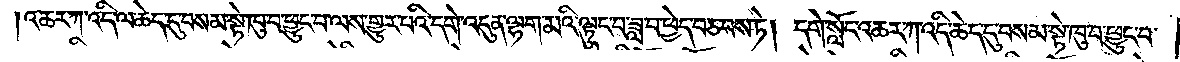འཆར་ཀ་འདི་ལ་ཆེད་དུ་བསམ་སྟེ་ཁུ་བ་ཕྱུང་བ་ལས་གྱུར་བའི་དགེ་འདུན་ལྷག་མའི་ལྟུང་བ་ཟླ་བ་ཕྱེད་བཅབས་ཏེ། དགེ་སློང་འཆར་ཀ་འདི་ཆེད་དུ་བསམ་སྟེ་ཁུ་བ་ཕྱུང་བ་
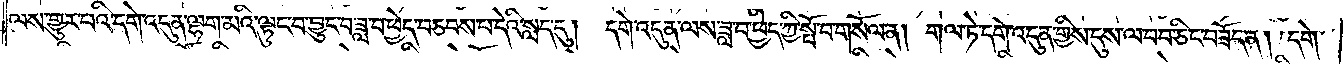ལས་གྱུར་པའི་དགེ་འདུན་ལྷག་མའི་ལྟུང་བ་བྱུང་བ་ཟླ་བ་ཕྱེད་བཅབས་པ་དེའི་སླད་དུ། དགེ་འདུན་ལས་ཟླ་བ་ཕྱེད་ཀྱི་སྤོ་བ་གསོལ་ན། གལ་ཏེ་དགེ་འདུན་གྱིས་དུས་ལ་བབ་ཅིང་བཟོད་ན། དགེ་
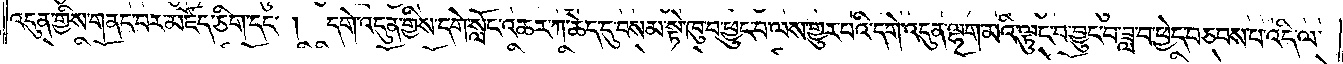འདུན་གྱིས་གནང་བར་མཛོད་ཅིག་དང༌། དགེ་འདུན་གྱིས་དགེ་སློང་འཆར་ཀ་ཆེད་དུ་བསམ་སྟེ་ཁུ་བ་ཕྱུང་བ་ལས་གྱུར་པའི་དགེ་འདུན་ལྷག་མའི་ལྟུང་བ་བྱུང་བ་ཟླ་བ་ཕྱེད་བཅབས་པ་འདི་ལ་
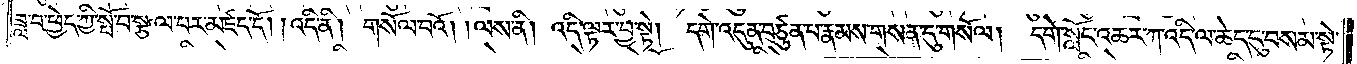ཟླ་བ་ཕྱེད་ཀྱི་སྤོ་བ་སྩལ་པར་མཛད་དོ། །འདི་ནི། གསོལ་བའོ། །ལས་ནི། འདི་ལྟར་བྱ་སྟེ། དགེ་འདུན་བཙུན་པ་རྣམས་གསན་དུ་གསོལ། དགེ་སློང་འཆར་ཀ་འདི་ལ་ཆེད་དུ་བསམ་སྟེ་
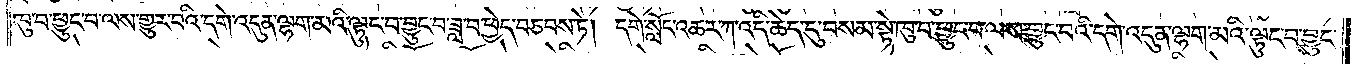ཁུ་བ་ཕྱུང་བ་ལས་གྱུར་བའི་དགེ་འདུན་ལྷག་མའི་ལྟུང་བ་བྱུང་བ་ཟླ་བ་ཕྱེད་བཅབས་ཏེ། དགེ་སློང་འཆར་ཀ་འདི་ཆེད་དུ་བསམ་སྟེ་ཁུ་བ་ཕྱུང་བ་ལས་བྱུང་བའི་དགེ་འདུན་ལྷག་པའི་ལྟུང་བ་བྱུང་
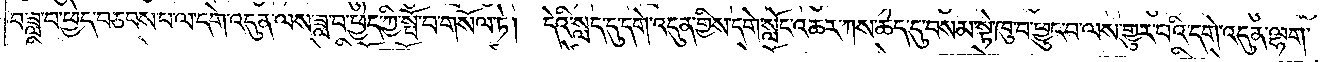བ་ཟླ་བ་ཕྱེད་བཅབས་པ་ལ་དགེ་འདུན་ལས་ཟླ་བ་ཕྱེད་ཀྱི་སྤོ་བ་གསོལ་ཏེ། དེའི་སླད་དུ་དགེ་འདུན་གྱིས་དགེ་སློང་འཆར་ཀས་ཆེད་དུ་བསམ་སྟེ་ཁུ་བ་ཕྱུང་བ་ལས་གྱུར་བའི་དགེ་འདུན་ལྷག་
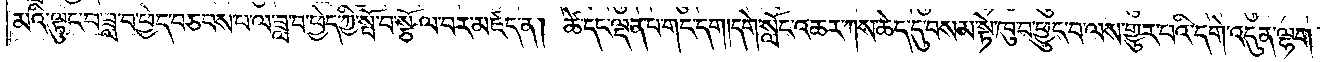མའི་ལྟུང་བ་ཟླ་བ་ཕྱེད་བཅབས་པ་ལ་ཟླ་བ་ཕྱེད་ཀྱི་སྤོ་བ་སྩོལ་བར་མཛད་ན། ཚེ་དང་ལྡན་པ་གང་དག། དགེ་སློང་འཆར་ཀས་ཆེད་དུ་བསམ་སྟེ་ཁུ་བ་ཕྱུང་བ་ལས་གྱུར་པའི་དགེ་འདུན་ལྷག་
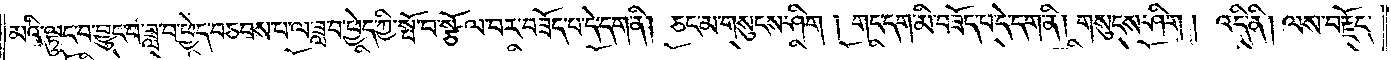མའི་ལྟུང་བ་བྱུང་བ་ཟླ་བ་ཕྱེད་བཅབས་པ་ལ་ཟླ་བ་ཕྱེད་ཀྱི་སྤོ་བ་སྩོལ་བར་བཟོད་པ་དེ་དག་ནི། ཅང་མ་གསུངས་ཤིག །གང་དག་མི་བཟོད་པ་དེ་དག་ནི། གསུངས་ཤིག །འདི་ནི། ལས་བརྗོད་
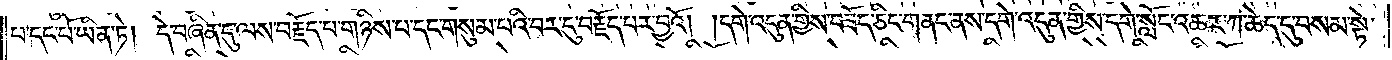པ་དང་པོ་ཡིན་ཏེ། དེ་བཞིན་དུ་ལས་བརྗོད་པ་གཉིས་པ་དང་གསུམ་པའི་བར་དུ་བརྗོད་པར་བྱའོ། །དགེ་འདུན་གྱིས་བཟོད་ཅིང་གནང་ནས་དགེ་འདུན་གྱིས་དགེ་སློང་འཆར་ཀ་ཆེད་དུ་བསམ་སྟེ་
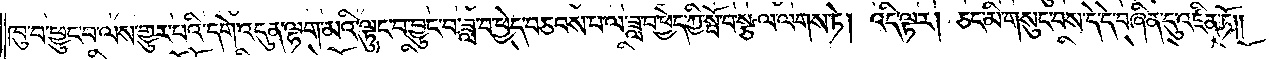ཁུ་བ་ཕྱུང་བ་ལས་གྱུར་བའི་དགེ་འདུན་ལྷག་མའི་ལྟུང་བ་བྱུང་བ་ཟླ་བ་ཕྱེད་བཅབས་པ་ལ་ཟླ་བ་ཕྱེད་ཀྱི་སྤོ་བ་སྩལ་ལགས་ཏེ། འདི་ལྟར། ཅང་མི་གསུང་བས་དེ་དེ་བཞིན་དུ་འཛིན་ཏོ༎
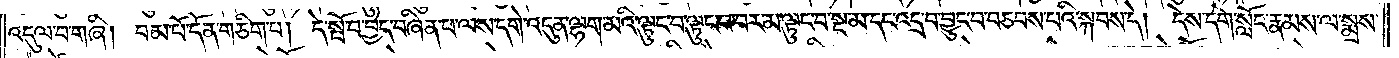འདུལ་བ་གཞི། བམ་པོ་དོན་གཅིག་པ། དེ་སྤོ་བ་བྱེད་བཞིན་པ་ལས་དགེ་འདུན་ལྷག་མའི་ལྟུང་བ་ལྟུང་བ་བར་མ་ལྟུང་བ་སྔ་མ་དང་འདྲ་བ་བྱུང་བ་བཅབས་པའི་སྐབས་དེ། དེས་དགེ་སློང་རྣམས་ལ་སྨྲས་
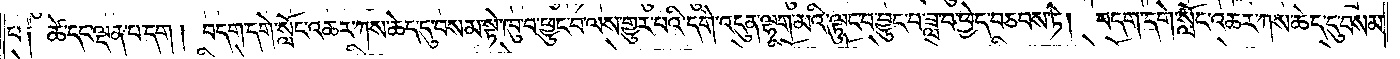པ༑ ཚེ་དང་ལྡན་པ་དག །བདག་དགེ་སློང་འཆར་ཀས་ཆེད་དུ་བསམ་སྟེ་ཁུ་བ་ཕྱུང་བ་ལས་གྱུར་པའི་དགེ་འདུན་ལྷག་མའི་ལྟུང་བ་བྱུང་བ་ཟླ་བ་ཕྱེད་བཅབས་ཏེ། བདག་དགེ་སློང་འཆར་ཀས་ཆེད་དུ་བསམ་
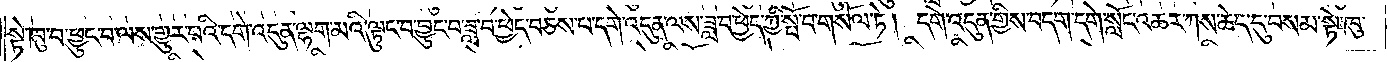སྟེ་ཁུ་བ་ཕྱུང་བ་ལས་གྱུར་བའི་དགེ་འདུན་ལྷག་མའི་ལྟུང་བ་བྱུང་བ་ཟླ་བ་ཕྱེད་བཅས་པ་དགེ་འདུན་ལས་ཟླ་བ་ཕྱེད་ཀྱི་སྤོ་བ་གསོལ་ཏེ། དགེ་འདུན་གྱིས་བདག་དགེ་སློང་འཆར་ཀས་ཆེད་དུ་བསམ་སྟེ་ཁུ་
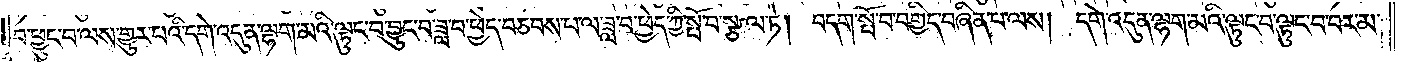བ་ཕྱུང་བ་ལས་གྱུར་པའི་དགེ་འདུན་ལྷག་མའི་ལྟུང་བ་བྱུང་བ་ཟླ་བ་ཕྱེད་བཅབས་པ་ལ་ཟླ་བ་ཕྱེད་ཀྱི་སྤོ་བ་སྩལ་ཏེ། བདག་སྤོ་བ་བགྱིད་བཞིན་པ་ལས། དགེ་འདུན་ལྷག་མའི་ལྟུང་བ་ལྟུང་བ་བར་མ་
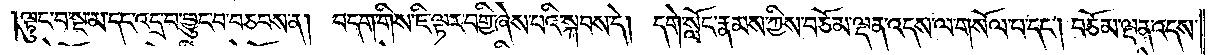ལྟུང་བ་སྔ་མ་དང་འདྲ་བ་བྱུང་བ་བཅབས་ན། བདག་གིས་ཇི་ལྟར་བགྱི་ཞེས་པའི་སྐབས་དེ། དགེ་སློང་རྣམས་ཀྱིས་བཅོམ་ལྡན་འདས་ལ་གསོལ་པ་དང༌། བཅོམ་ལྡན་འདས་
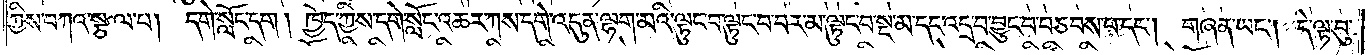ཀྱིས་བཀའ་སྩལ་པ། དགེ་སློང་དག །ཁྱེད་ཀྱིས་དགེ་སློང་འཆང་ཀས་དགེ་འདུན་ལྷག་མའི་ལྟུང་བ་ལྟུང་བ་བར་མ་ལྟུང་བ་སྔ་མ་དང་འདྲ་བ་བྱུང་བ་བཅབས་པ་དང༌། གཞན་ཡང༌། དེ་ལྟ་བུ་
